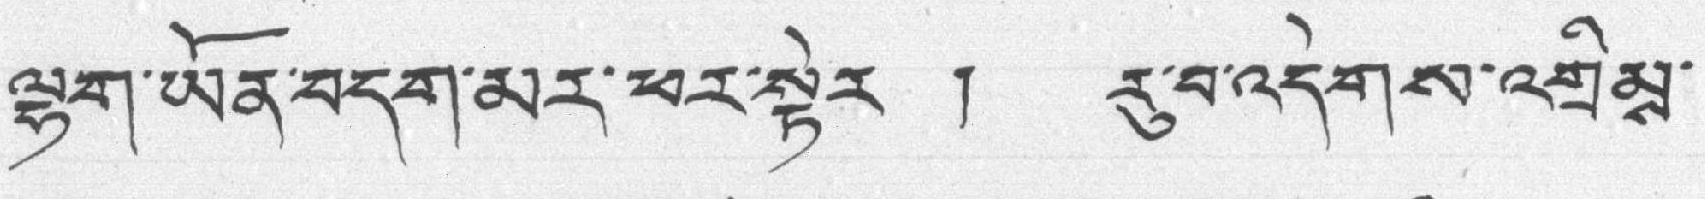ལྷག་ཡོན་བདག་མར་ཕར་སྟེར ། རུ་བ་འདེགས་འགྲིམས་
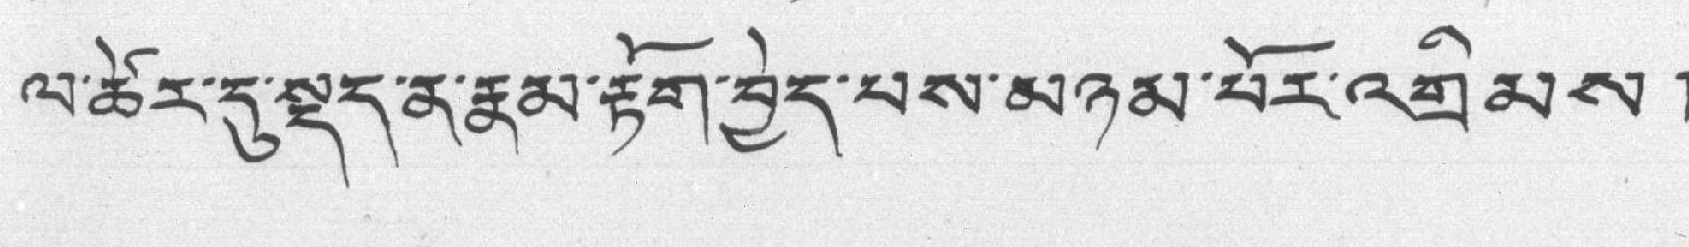ལ་ཚེར་དུ་སྡུད་ན་རྣམ་རྟོག་བྱེད་པས་མཉམ་པོར་འགྲིམས །
